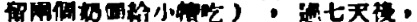留兩個奶頭給小犢吃），過七天後，
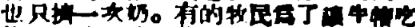也只擠一次奶。有的牧民爲了讓牛犢吃
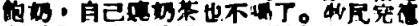飽奶，自己連奶茶也不喝了。牧民完德
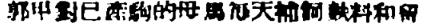郭甲對已產駒的母馬每天補飼麩料和留
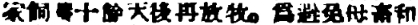家飼養十餘天後再放牧。爲避免母畜和
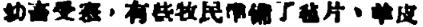幼畜受寒，有些牧民準備了毡片，羊皮
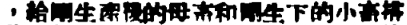，給剛生產後的母畜和剛生下的小畜搭
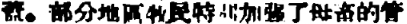蓋。部分地區牧民特別加強了母畜的管
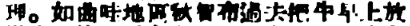理。如曲哇地區秋智布過去把牛早上放
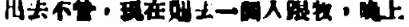出去不管，現在則去一個人跟牧，晚上
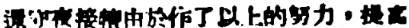還守夜接犢由於作了以上的努力，提高
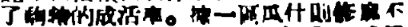了駒犢的成活率。據一區瓜什則修麻不
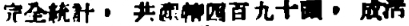完全統計，共產犢四百九十頭，成活
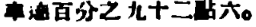率達百分之九十二點六。
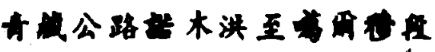青藏公路諾木洪至噶爾穆段
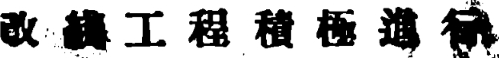改 綫 工 程 積 極 進 行
